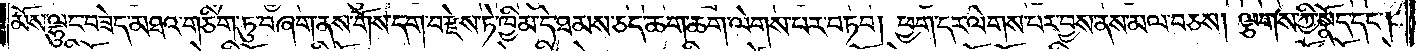མོས་ལྷུང་བཟེད་མཐའ་གཅིག་ཏུ་བཞག་ནས་གོས་དག་བརྫེས་ཏེ་ཁྱིམ་དེ་ཐམས་ཅད་ཆག་ཆག་ལེགས་པར་བཏབ། ཕྱག་དར་ལེགས་པར་བྱས་ནས་མལ་བཅས། ལྕགས་ཀྱི་སྣོད་དང༌།
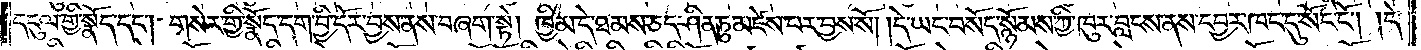དངུལ་གྱི་སྣོད་དང༌། གསེར་གྱི་སྣོད་དག་བྱི་དོར་བྱས་ནས་བཞག་སྟེ། ཁྱིམ་དེ་ཐམས་ཅད་ཤིན་ཏུ་མཛེས་པར་བྱས་སོ། །དེ་ཡང་བསོད་སྙོམས་ཀྱི་ཁུར་བླངས་ནས་དབྱར་ཁང་དུ་སོང་ངོ༌། །དེ་
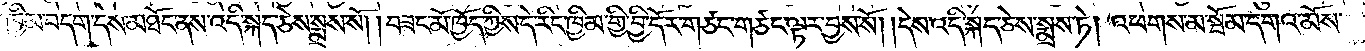ནས་ཁྱིམ་བདག་དེས་མཐོང་ནས་འདི་སྐད་ཅེས་སྨྲས་སོ། །བཟང་མོ་ཁྱོད་ཀྱིས་དེ་རིང་ཁྱིམ་གྱི་བྱི་དོར་གཙང་གཙོང་ལྟར་བྱས་སོ། །དེས་འདི་སྐད་ཅེས་སྨྲས་ཏེ། འཕགས་མ་སྦོམ་དགའ་མོས་
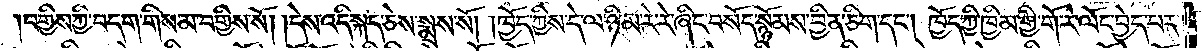བགྱིས་ཀྱི་བདག་གིས་མ་བགྱིས་སོ། །དེས་འདི་སྐད་ཅེས་སྨྲས་སོ། །ཁྱོད་ཀྱིས་དེ་ལ་ཉི་མ་རེ་རེ་ཞིང་བསོད་སྙོམས་བྱིན་ཤིག་དང༌། ཁྱོད་ཀྱི་ཁྱིམ་གྱི་གོ་རེ་ལོང་བྱེད་པར་
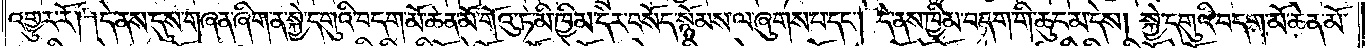འགྱུར་རོ། །དེ་ནས་དུས་གཞན་ཞིག་ན་སྐྱེ་དགུའི་བདག་མོ་ཆེན་མོ་གོའུ་ཏ་མི་ཁྱིམ་དེར་བསོད་སྙོམས་ལ་ཞུགས་པ་དང༌། དེ་ནས་ཁྱིམ་བདག་གི་ཆུང་མ་དེས། སྐྱེ་དགུའི་བདག་མོ་ཆེན་མོ་
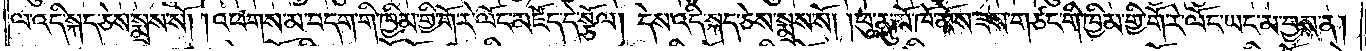ལ་འདི་སྐད་ཅེས་སྨྲས་སོ། །འཕགས་མ་བདག་གི་ཁྱིམ་གྱི་གོ་རེ་ལོང་མཛོད་དེ་སྩོལ། དེས་འདི་སྐད་ཅེས་སྨྲས་སོ། །ཕུ་ནུ་མོ་ཁོ་མོས་ཟས་གཙང་གི་ཁྱིམ་གྱི་གོ་རེ་ལོང་ཡང་མ་བྱས་ན།
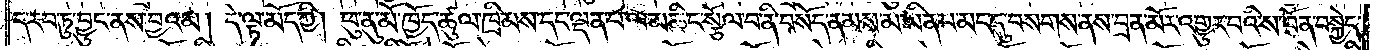ད་རབ་ཏུ་བྱུང་ནས་བྱའམ། དེ་ལྟ་མོད་ཀྱི། ཕུ་ནུ་མོ་ཁྱོད་ཚུལ་ཁྲིམས་དང་ལྡན་པ་ལ་མཆིང་སྩོལ་བ་ནི་བསོད་ནམས་མ་ཡིན་པ་མང་དུ་བསགས་ནས་བྲན་མོར་འགྱུར་པའི་ས་བོན་བསྐྱེད་
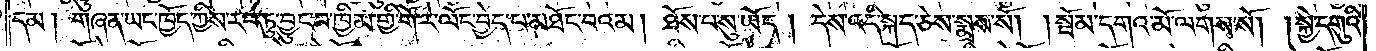དམ། གཞན་ཡང་ཁྱོད་ཀྱིས་རབ་ཏུ་བྱུང་བ་ཁྱིམ་གྱི་གོ་རེ་ལོང་བྱེད་པ་མཐོང་བའམ། ཐོས་པ་སུ་ཡོད། དེས་འདི་སྐད་ཅེས་སྨྲས་སོ། །སྦོམ་དགའ་མོ་ལགས་སོ། །སྐྱེ་དགུའི་
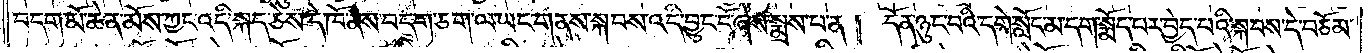བདག་མོ་ཆེན་མོས་ཀྱང་འདི་སྐད་ཅེས་དེ་ཁོ་ནས་བདག་ཅག་ལ་ཡང་གནས་སྐབས་འདི་བྱུང་ངོ་ཞེས་སྨྲས་པ་ན། དོན་ཉུང་བའི་དགེ་སློང་མ་དག་སྨོད་པར་བྱེད་པའི་སྐབས་དེ་བཅོམ་
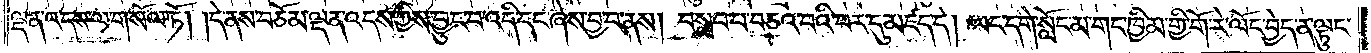ལྡན་འདས་ལ་གསོལ་ཏོ། །དེ་ནས་བཅོམ་ལྡན་འདས་ཀྱིས་བྱུང་བ་འདི་དང་ཞེས་བྱ་བ་ནས། བསླབ་པ་བཅའ་བའི་བར་དུ་མཛད་དེ། ཡང་དགེ་སློང་མ་གང་ཁྱིམ་གྱི་གོ་རེ་ལོང་བྱེད་ན་ལྟུང་
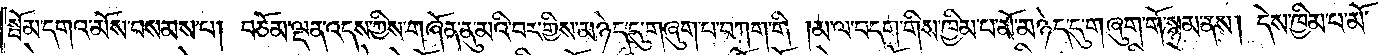སྦོམ་དགའ་མོས་བསམས་པ། བཅོམ་ལྡན་འདས་ཀྱིས་གཞོན་ནུ་མའི་བར་གྱིས་མཉེད་དུ་གཞུག་པ་བཀག་གི །མ་ལ་བདག་གིས་ཁྱིམ་པ་མོ་མཉེད་དུ་གཞུག་གོ་སྙམ་ནས། དེས་ཁྱིམ་པ་མོ་
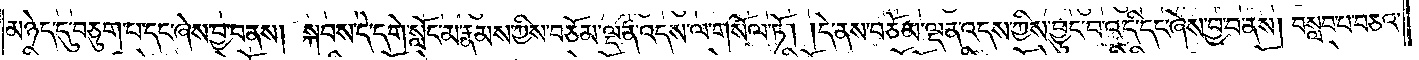མཉེད་དུ་བཅུག་པ་དང་ཞེས་བྱ་བ་ནས། སྐབས་དེ་དགེ་སློང་མ་རྣམས་ཀྱིས་བཅོམ་ལྡན་འདས་ལ་གསོལ་ཏོ། །དེ་ནས་བཅོམ་ལྡན་འདས་ཀྱིས་བྱུང་བ་འདི་དང་ཞེས་བྱ་བ་ནས། བསླབ་པ་བཅའ་
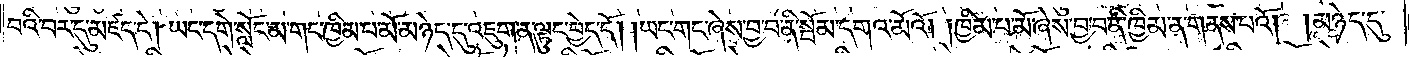བའི་བར་དུ་མཛད་དེ། ཡང་དགེ་སློང་མ་གང་ཁྱིམ་པ་མོ་མཉེད་དུ་འཇུག་ན་ལྟུང་བྱེད་དོ། །ཡང་གང་ཞེས་བྱ་བ་ནི་སྦོམ་དགའ་མོའོ། །ཁྱིམ་པ་མོ་ཞེས་བྱ་བ་ནི་ཁྱིམ་ན་གནས་པའོ། །མཉེད་དུ་
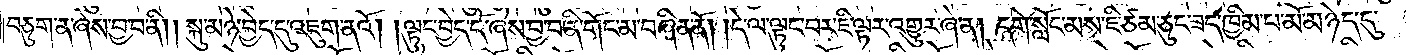བཅུག་ན་ཞེས་བྱ་བ་ནི། །སྐུ་མཉེ་བྱེད་དུ་འཇུག་ནའོ། །ལྟུང་བྱེད་དོ་ཞེས་བྱ་བ་ནི་གོང་མ་བཞིན་ནོ། །དེ་ལ་ལྟུང་བར་ཇི་ལྟར་འགྱུར་ཞེ་ན། དགེ་སློང་མས་ཇི་ཙམ་ཅུང་ཟད་ཁྱིམ་པ་མོ་མཉེད་དུ་
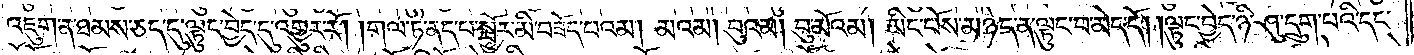འཇུག་ན་ཐམས་ཅད་དུ་ལྟུང་བྱེད་དུ་འགྱུར་རོ། །གལ་ཏེ་ནད་པ་སྦྱོར་མི་བཟོད་པའམ། མའམ། བུའམ། བུ་མོའམ། མིང་པོས་མཉེད་ན་ལྟུང་བ་མེད་དོ། །ལྟུང་བྱེད་ཉི་ཤུ་དྲུག་པའི་དང་
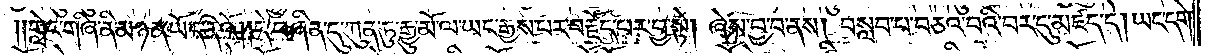གླེང་གཞི་ནི་མཉན་ཡོད་ནའོ། །དེ་བཞིན་དུ་ཀུན་ཏུ་རྒྱུ་མོ་ལ་ཡང་རྒྱས་པར་བརྗོད་པར་བྱ་སྟེ། ཞེས་བྱ་བ་ནས། བསླབ་པ་བཅའ་བའི་བར་དུ་མཛད་དེ། ཡང་དགེ་
